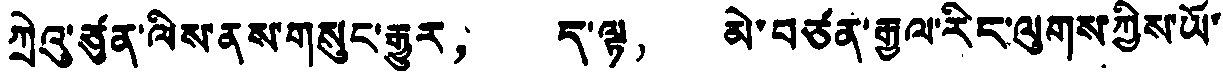ཀྲེའུ་ཙུན་ལིས་ནས་གསུང་རྒྱུར， ད་ལྟ， མེ་བཙན་རྒྱལ་རིང་ལུགས་ཀྱིས་ཡོ་
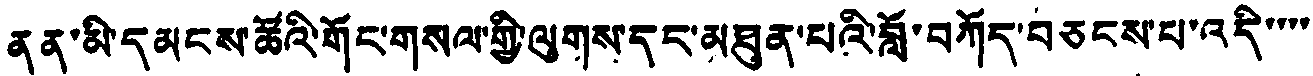ནན་མི་དམངས་ཚོའི་གོང་གསལ་གྱི་ལུགས་དང་མཐུན་པའི་བློ་བཀོད་བཅངས་པ་འདི་་་་
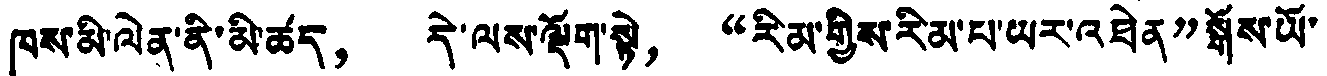ཁས་མི་ལེན་ནི་མི་ཚད， དེ་ལས་ལྡོག་སྟེ， “རིམ་གྱིས་རིམ་པ་ཡར་འཐེན”སྒོས་ཡོ་
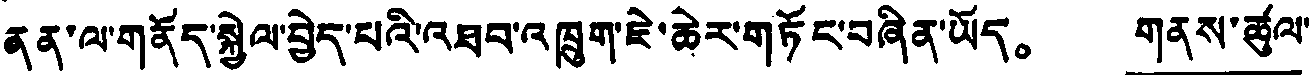ནན་ལ་གནོད་སྐྱེལ་བྱེད་པའི་འཐབ་འཁྲུག་ཇེ་ཆེར་གཏོང་བཞིན་ཡོད。 གནས་ཚུལ་
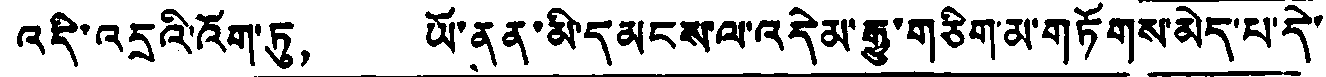འདི་འདྲའི་འོག་ཏུ， ཡོ་ནན་མི་དམངས་ལ་འདེམ་རྒྱུ་གཅིག་མ་གཏོགས་མེད་པ་དེ་
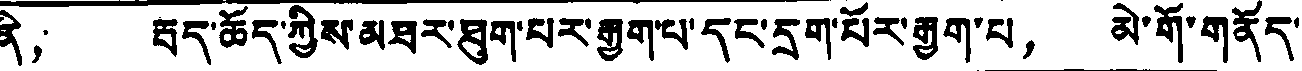ནི， རྦད་ཆོད་ཀྱིས་མཐར་ཐུག་པར་རྒྱུག་པ་དང་དྲག་པོར་རྒྱུག་པ， མེ་གོ་གནོད་
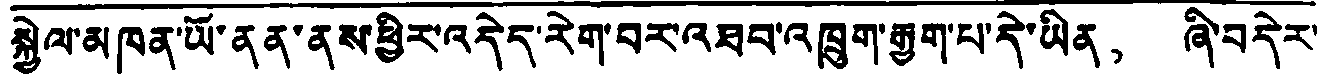སྐྱེལ་མཁན་ཡོ་ནན་ནས་ཕྱིར་འདེད་རེག་བར་འཐབ་འཁྲུག་རྒྱུག་པ་དེ་ཡིན， ཞི་བདེར་
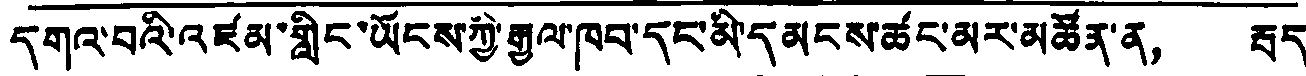དགའ་བའི་འཛམ་གླིང་ཡོངས་ཀྱི་རྒྱལ་ཁབ་དང་མི་དམངས་ཚང་མར་མཚོན་ན， རྦད་
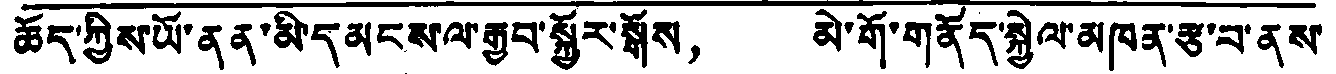ཆོད་ཀྱིས་ཡོ་ནན་མི་དམངས་ལ་རྒྱབ་སྐྱོར་སྒོས， མེ་གོ་གནོད་སྐྱེལ་མཁན་རྩ་བ་ནས་
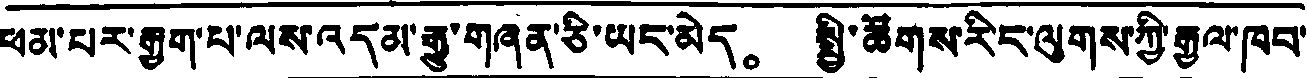ཕམ་པར་རྒྱག་པ་ལས་འདམ་རྒྱུ་གཞན་ཅི་ཡང་མེད。 སྤྱི་ཚོགས་རིང་ལུགས་ཀྱི་རྒྱལ་ཁབ་
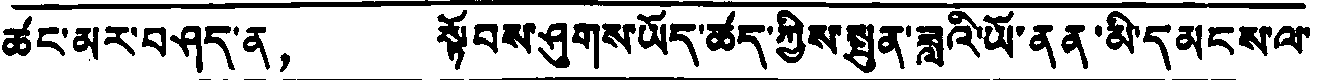ཚང་མར་བཤད་ན， སྟོབས་ཤུགས་ཡོད་ཚད་ཀྱིས་སྤུན་ཟླའི་ཡོ་ནན་མི་དམངས་ལ་
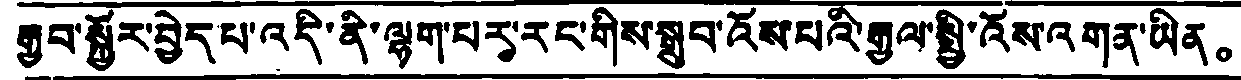རྒྱབ་སྐྱོར་བྱེད་པ་འདི་ནི་ལྷག་པར་རང་གིས་སྒྲུབ་འོས་པའི་རྒྱལ་སྤྱི་འོས་འགན་ཡིན。
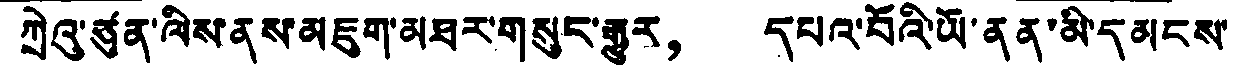ཀྲེའུ་ཙུན་ལིས་ནས་མཇུག་མཐར་གསུང་རྒྱུར， དཔའ་བོའི་ཡོ་ནན་མི་དམངས་
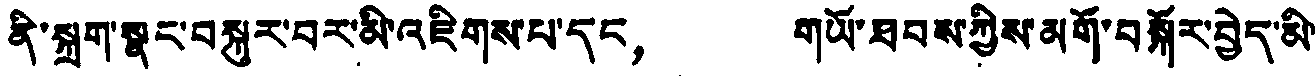ནི་སྐྲག་སྣང་བསྐུར་བར་མི་འཇིགས་པ་དང， གཡོ་ཐབས་ཀྱིས་མགོ་བསྐོར་བྱེད་མི་
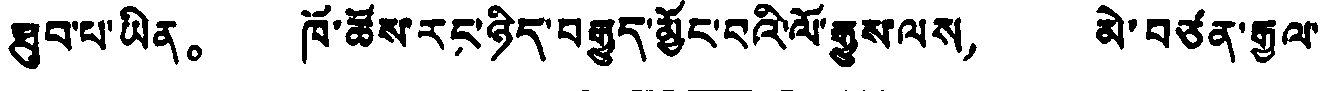ཐུབ་པ་ཡིན。 ཁོ་ཚོས་རང་ཉིད་བརྒྱུད་མྱོང་བའི་ལོ་རྒྱུས ལས， མེ་བཙན་རྒྱལ་
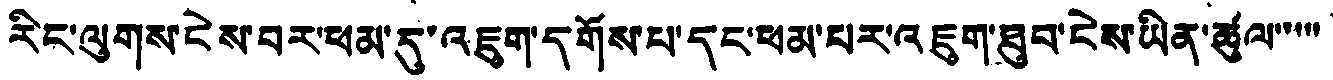རིང་ལུགས་ངེས་བར་ཕམ་དུ་འཇུག་དགོས་པ་དང་ཕམ་པར་འཇུག་ཐུབ་ངེས་ཡིན་ཚུལ་་་་་
